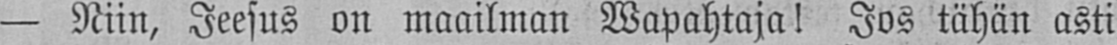— Niin, Jeesus on maailman Wapahtaja! Jos tähän asti
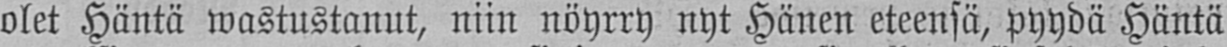olet Häntä wastustanut, niin nöyrry nyt Hänen eteensä, pyydä Häntä
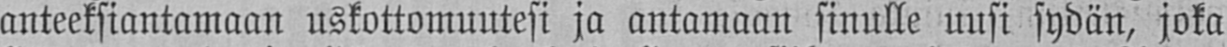anteeksiantamaan uskottomuutesi ja antamaan sinulle uusi sydän, joka
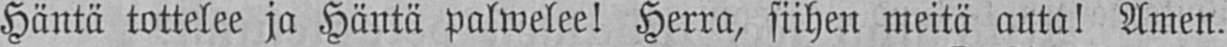Häntä tottelee ja Häntä palwelee! Herra, siihen meitä auta! Amen.
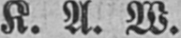K. A. W.
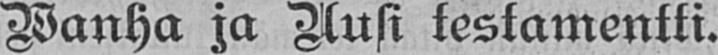Wanha ja Uusi testamentti.
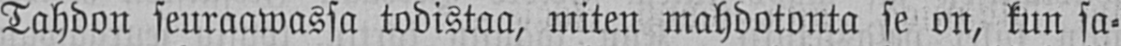Tahdon seuraawassa todistaa, miten mahdotonta se on, kun sa-
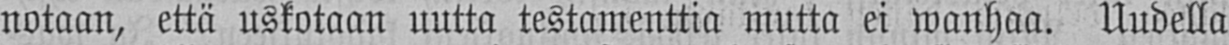notaan, että uskotaan uutta testamenttia mutta ei wanhaa. Uudella
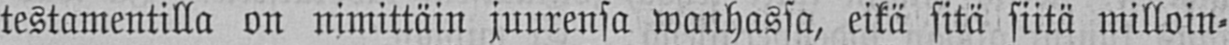testamentilla on nimittäin juurensa wanhassa, eikä sitä siitä milloin-
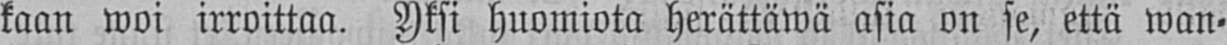kaan woi irroittaa. Yksi huomiota herättäwä asia on se, että wan-
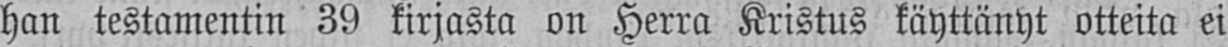han testamentin 39 kirjasta on Herra Kristus käyttänyt otteita ei
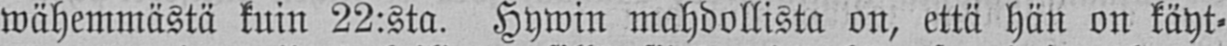wähemmästä kuin 22:sta. Hywin mahdollista on, että hän on käyt-
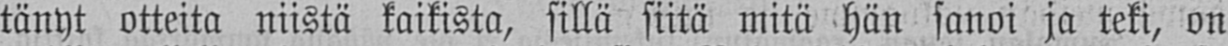tänyt otteita niistä kaikista, sillä siitä mitä hän sanoi ja teki, on
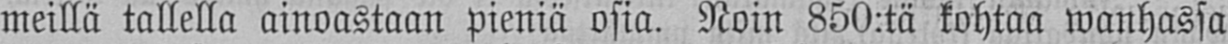meillä tallella ainoastaan pieniä osia. Noin 850:tä kohtaa wanhassa
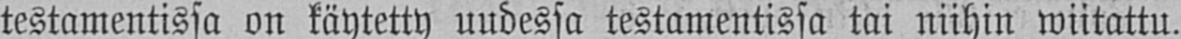testamentissa on käytetty uudessa testamentissa tai niihin wiitattu.
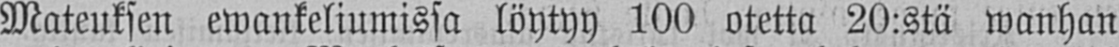Mateuksen ewankeliumissa löytyy 100 otetta 20:stä wanhan
